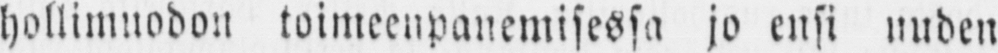hollimuodon toimeenpanemisessa jo ensi uuden
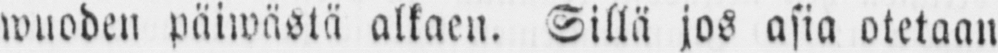wuoden päiwästä alkaen. Sillä jos asia otetaan
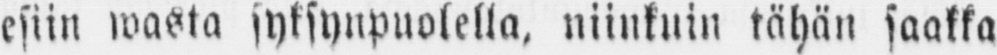esiin wasta syksynpuolella, niinkuin tähän saakka
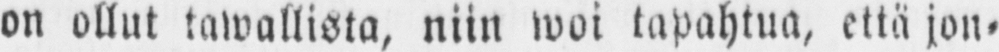on ollut tawallista, niin woi tapahtua, että jon-
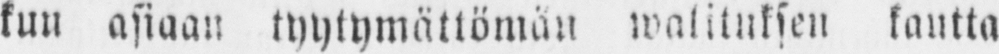kun asiaan tyytymättömän walituksen kautta
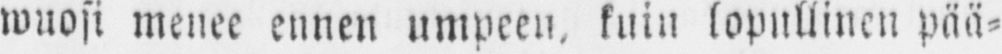wuosi menee ennen umpeen, kuin lopullinen pää-
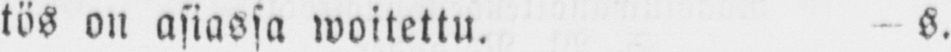tös on asiassa woitettu. - S.
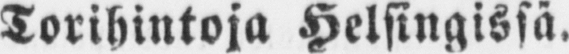Torihintoja Helsingissä.
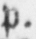p.
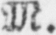M.
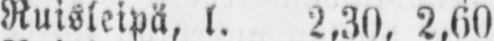Ruisleipä, l. 2,30 2,60
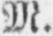M.
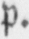p.
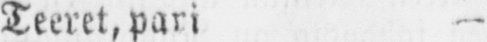Teeret, pari —
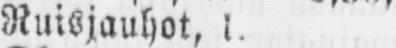Ruisjauhot, l. 2,40
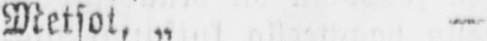Metsot, „ —
